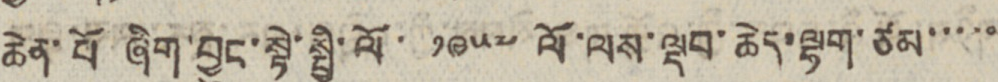ཆེན་པོ ཞིག་བྱུང་སྟེ་སྤྱི་ལོ་ ༡༩༥༧ ལོ་ལས་ལྡབ་ཆེད་ལྷག་ཙམ་་་་་
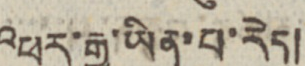འཕར་རྒྱུ་ཡིན་པ་རེད།
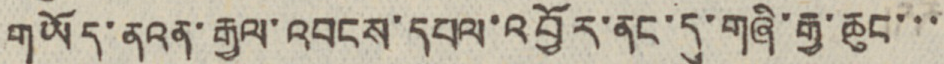གཡོད་ནའན་རྒྱལ་འབངས་དཔལ་འབྱོར་ནང་དུ་གཞི་རྒྱ་ཆུང་་་
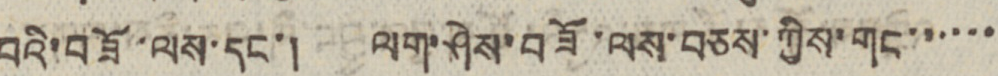བའི་བཟོ་ལས་དང་། ལག་ཤེས་བཟོ་ལས་བཅས་ཀྱིས་གང་་་་་་
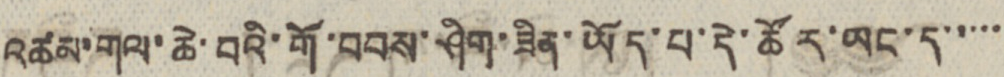འཚམ་གལ་ཆེ་བའི་གོ་བབས་ཤིག་ཟིན་ཡོད་པ་དེ་ཚོར་ཡང་ད་་་་་
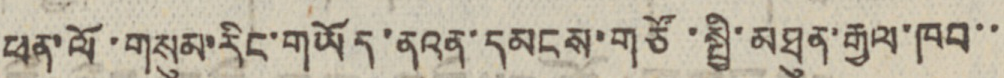ཕན་ལོ་གསུམ་རིང་གཡོད་ནའན་དམངས་གཙོ་སྤྱི་མཐུན་རྒྱལ་ཁབ་་
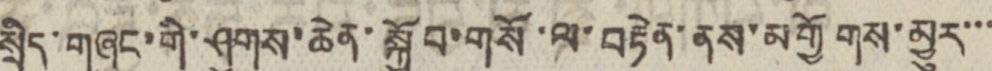སྲིད་གཞུང་གི་ཤུགས་ཆེན་སྐྱོབ་གསོ་ལ་བརྟེན་ནས་མགྱོགས་མྱུར་་་
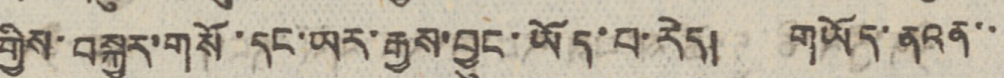གྱིས་བསྐྱར་གསོ་དང་ཡར་རྒྱས་བྱུང་ཡོད་པ་རེད། གཡོད་ནའན་་
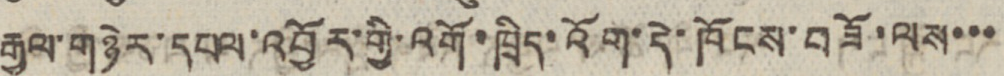རྒྱལ་གཉེར་དཔལ་འབྱོར་གྱི་འགོ་ཁྲིད་འོག་དེ་ཁོངས་བཟོ་ལས་་་
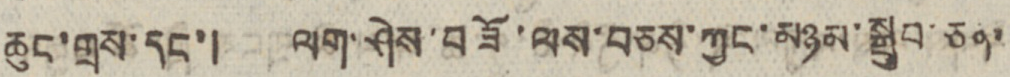ཆུང་གྲས་དང་། ལག་ཤེས་བཟོ་ལས་བཅས་ཀྱང་མཉམ་སྒྲུབ་ཅན་
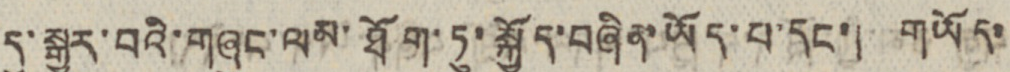དུ་སྒྱུར་བའི་གཞུང་ལམ་ཐོག་ཏུ་སྐྱོད་བཞིན་ཡོད་པ་དང་། གཡོད་
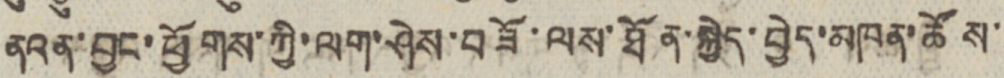ནའན་བྱང་ཕྱོགས་ཀྱི་ལག་ཤེས་བཟོ་ལས་ཐོན་སྐྱེད་བྱེད་མཁན་ཚོས་
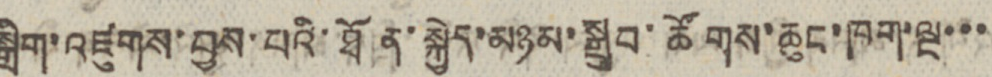སྒྲིག་འཛུགས་བྱས་པའི་ཐོན་སྐྱེད་མཉམ་སྒྲུབ་ཚོགས་ཆུང་ཁག་ལྔ་་་
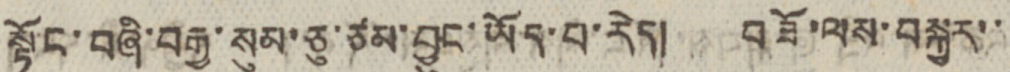སྟོང་བཞི་བརྒྱ་སུམ་ཅུ་ཙམ་བྱུང་ཡོད་པ་རེད། བཟོ་ལས་བསྐྱར་་
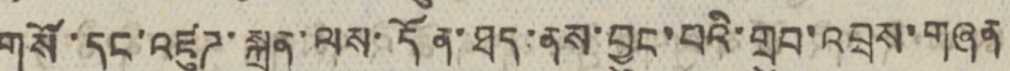གསོ་དང་འཛུཊ་སྐྲུན་ལས་དོན་ཐད་ནས་བྱུང་བའི་གྲུབ་འབྲས་གཞན
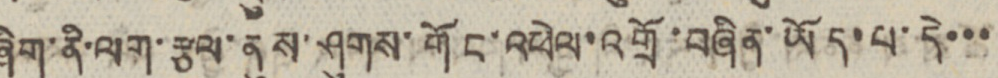ཞིག་ནི་ལག་རྩལ་ནུས་ཤུགས་གོང་འཕེལ་འགྲོ་བཞིན་ཡོད་པ་དེ་་་
